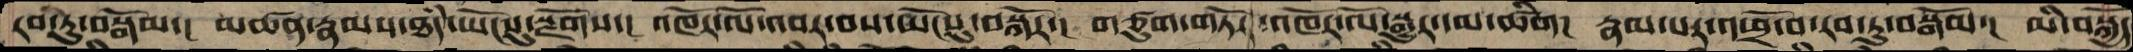རབ་ཏུ་བསྒོམ་། མཚན་རྣམས་ཐཾད་ཡོངསུ་སྫོགས་། འཁོར་ལོ་འབར་བས་ཡོངསུ་བསྐོར་། གཙུག་གཏོར་འཁོར་ལོ་སྒྱུར་དམ་ཚིག། རྣམ་པར་འཕྲོ་བ་རབ་ཏུ་བསྒོམ་། མི་བསྐྱོད་
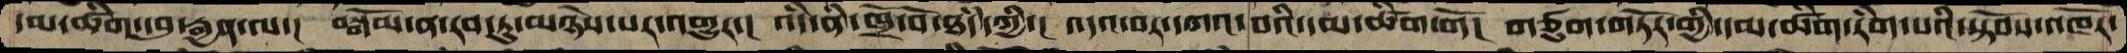དམ་ཚིག་དབུ་རྒྱན་ལ་། བསྒོམ་ན་རབ་ཏུ་མཉེས་པར་འགྱུར་། འདི་ནི་ཁྲོ་བོ་ཐཾད་ཀྱི་། འདའ་བར་དཀའ་བའི་དམ་ཚིག་གོ། གཙུག་གཏོར་གྱི་དམ་ཚིག་རིག་པའི་སྟོབས་འཁོར་
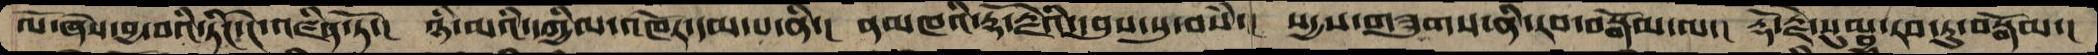ལོ་ཞེས་བྱ་བའི་ཏིང་ངེ་འཛིན་ཏོ་། ཉི་མའི་དཀྱིལ་འཁོར་དམ་པ་ནི་། ནམཁའི་རྡོ་རྗེའི་དབུས་སུ་བསཾ་། སདྱས་གཟུགས་ནི་རབ་བསྒོམ་ལ་། རྡོ་རྗེ་སུམྦྷ་རབ་ཏུ་བསྒོམ་།
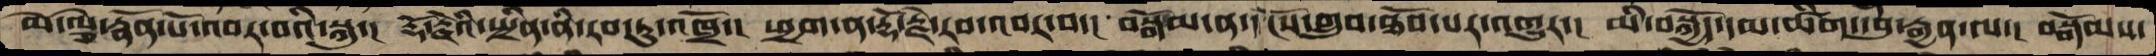མེ་ལྕེ་རྣོན་པོ་འབར་བའི་སྐུ་། རྡོ་རྗེའི་སྤྲིན་ནི་རབ་ཏུ་འཁྲོ་། ཕྱག་ན་རྡོ་རྗེ་རབ་འབར་བ་། བསྒོམ་ན་དངོས་གྲུབ་ཐོབ་པར་འགྱུར་། མི་བསྐྱོད་དམ་ཚིག་དབུ་རྒྱན་ལ་། བསྒོམས་
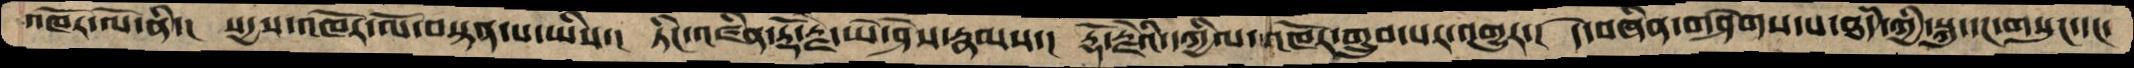འཁོར་ལོ་ནི་།  སདྱས་འཁོར་ལོ་བསྟན་པ་ཡིས་། ཏིང་འཛིན་རྡོ་རྗེ་ཡེ་ཤེས་རྣམས་། རྡོ་རྗེའི་དཀྱིལ་འཁོར་གྲུབ་པར་འགྱུར་། དེ་བཞིན་གཤེགས་པ་ཐཾད་ཀྱི་སྐུ་དང་གསུང་དང་
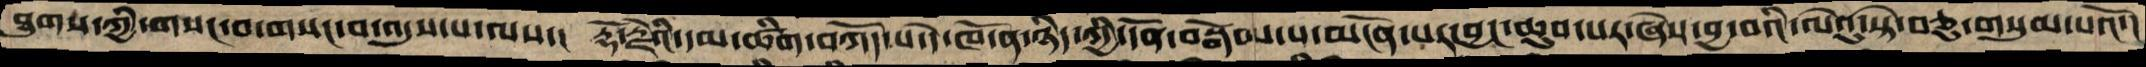ཐུགས་ཀྱི་གསང་བ་གསང་བ་འདུས་པ་ལས་། རྡོ་རྗེའི་དམ་ཚིག་བཀོད་པ་དེ་ཁོ་ན་ཉིད་ཀྱི་དོན་བསྒོམ་པ་མངོན་པར་བྱང་ཆུབ་པར་ཞེས་བྱ་བའི་ལེའུ་སྟེ་བཅུ་གསུམ་པའོ་།
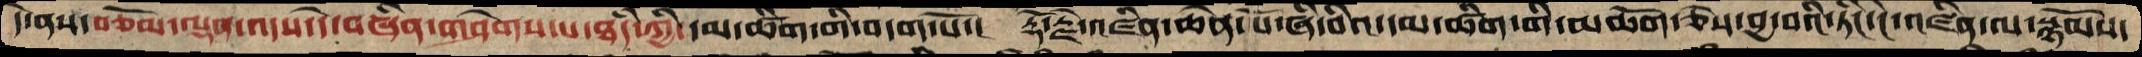དེ་ནས་བཅོམ་ལྡན་འདས་དེ་བཞིན་གཤེགས་པ་ཐཾད་ཀྱི་དམ་ཚིག་གི་བདག་པོ་།  རྡོ་རྗེ་འཛིན་ཆེན་པོ་ཞི་བའི་དམ་ཚིག་གི་མཆོག་ཅེས་བྱ་བའི་ཏིང་ངེ་འཛིན་ལ་སྙོམས་
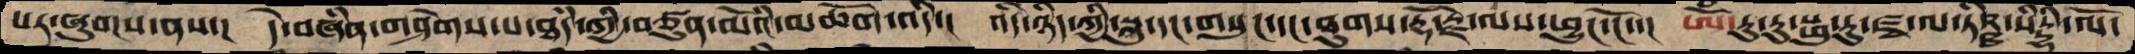པར་ཞུགས་ནས་།  དེ་བཞིན་གཤེགས་པ་ཐཾད་ཀྱི་བཙུན་མོའི་མཆོག་འདི་།  འདི་ཉིད་ཀྱི་སྐུ་དང་གསུང་དང་ཐུགས་རྡོ་རྗེ་ལས་ཕྱུང་ངོ་་།  ཨོཾ་རུ་རུ་སྥུ་རུ་ཛྭ་ལ་ཏིཥྛ་སིདྡྷི་ལོ་
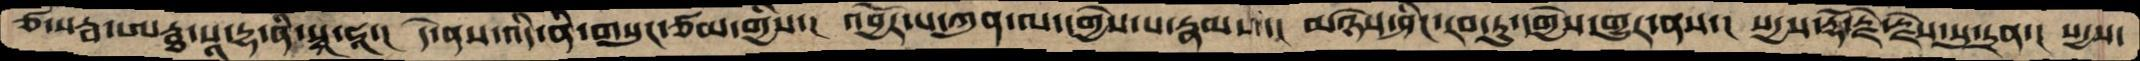ཙ་སརྦ་ཨརྠ་སཱ་དྷ་ནི་སྭཱ་ཧ་།  དེ་ནས་འདི་ནི་གསུང་ཙམ་གྱིས་།  འབྱོར་པ་ཀུན་ལ་དགྱེས་པ་རྣམས་་།  མཉེས་ཤིང་རབ་ཏུ་དགྱེས་གྱུར་ནས་།  སདྱས་རྡོ་རྗེ་རྗེས་སུ་དྲན་། སདྱས་
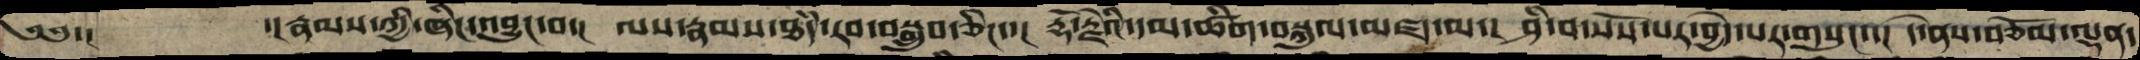༄༅་།         ་།རྣམས་ཀྱི་ཞིང་འབྱུང་བ་།  ལས་རྣམས་ཐཾད་རབ་བསྒྲུབ་ཅིང་་། རྡོ་རྗེའི་དམ་ཚིག་བསྐུལ་མཛད་མ་། ཤི་བ་སོས་པར་བྱེད་པར་གསུང་་། དེ་ནས་བཅོམ་ལྡན་
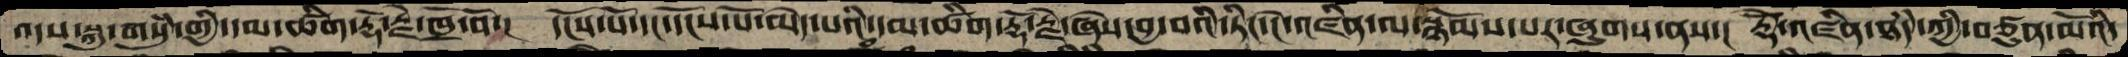འདས་སྐུ་གསུཾ་གྱི་དམ་ཚིག་རྡོ་རྗེ་ཁྲོ་བོ་།  དངོས་པོ་དང་དངོས་པོ་མེད་པའི་དམ་ཚིག་རྡོ་རྗེ་ཞེས་བྱ་བའི་ཏིང་ངེ་འཛིན་ལ་སྙོམས་པར་ཞུགས་ནས་། རྡོེ་འཛིན་ཐཾད་ཀྱི་བཙུན་མོའི་
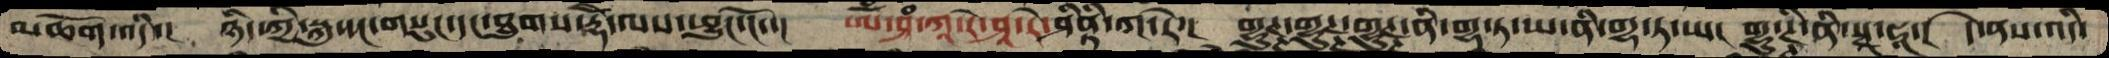མཆོག་འདི་།   ཉིད་ཀྱི་སྐུ་དང་གསུང་དང་ཐུགས་རྡོེ་ལས་ཕྱུང་ངོ་་།   ཨོཾ་ཤཾ་ཀཱ་རེ་ཤིནྟི་ཀ་རེ་།  གྷུཊྚ་གྷུཊྚ་གྷུཊྚ་ནི་གྷ་ཏ་ཡ་ནི་གྷ་ཏ་ཡ། གྷུ་ཊྚི་ནི་སྭཱ་ཧཱ་།  དེ་ནས་འདི་
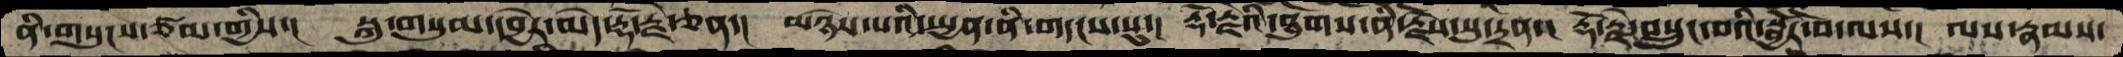ནི་གསུངས་ཙམ་གྱིས་།  སྐུ་གསུམ་དབྱེར་མེད་རྡོ་རྗེ་ཅན་།  མཉེས་པའི་སྤྱན་ནི་གདངས་སུ་། རྡོ་རྗེའི་ཐུགས་ནི་རྗེས་སུ་དྲན་། རྡོ་རྗེ་བསྲུང་བའི་སྦྱོར་བ་ལས་། ལས་རྣམས་
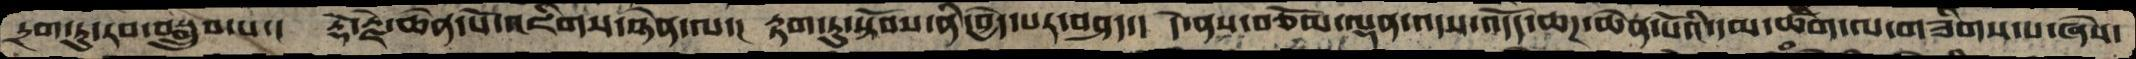དྲག་ཏུ་རབ་བསྒྲུབ་པ་།  རྡོ་རྗེ་ཆེན་པོ་འཇིགས་ཉེན་ལ་།  རྟག་ཏུ་སྟོབས་ནི་བྱེད་པར་བཤད། དེ་ནས་བཅོམ་ལྡན་འདས་འདོད་ཆཌ་ཆེན་པོའི་དམ་ཚིག་ལ་གཟིགས་པ་ཞེས་
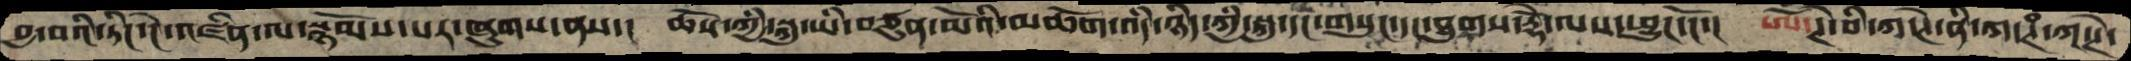བྱ་བའི་ཏིང་ངེ་འཛིན་ལ་སྙོམས་པར་ཞུགས་ནས་།  ཆོས་ཀྱི་སྐུ་ཡི་བཙུན་མོའི་མཆོག་འདི་ཉིད་ཀྱི་སྐུ་དང་གསུང་དང་ཐུགས་རྡོེ་ལས་ཕྱུང་ངོ་།  ཨོཾ་ཊེ་བི་ཀ་ཊེ་ནི་ཀ་ཊཾ་ཀ་ཊེ
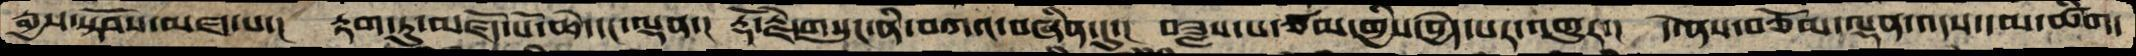རྒྱས་སྟོབས་མཛད་པ་།  རྟག་ཏུ་མཛོད་པོ་ཆེ་དང་ལྡན་།  རྡོ་རྗེ་གསུང་ནི་བཀའ་བཞིན་དུ་།  བཟླས་པ་ཙམ་གྱིས་བྱེད་པར་འགྱུར་།  དེ་ནས་བཅོམ་ལྡན་འདས་དམ་ཚིག་
